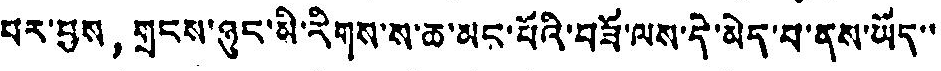པར་བྱས，གྲངས་ཉུང་མི་རིགས་ས་ཆ་མང་པོའི་བཟོ་ལས་དེ་མེད་པ་ནས་ཡོད་་
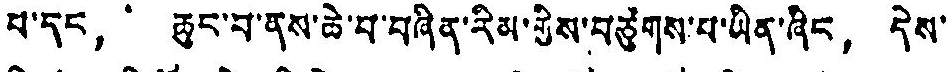པ་དང， ཆུང་བ་ནས་ཆེ་བ་བཞིན་རིམ་གྱིས་བཙུགས་པ་ཡིན་ཞིང， དེས་
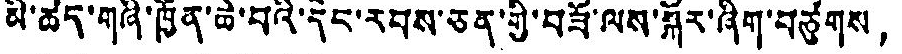མི་ཚད་གཞི་ཁྱོན་ཆེ་བའི་དེང་རབས་ཅན་གྱི་བཟོ་ལས་སྐོར་ཞིག་བཙུགས，
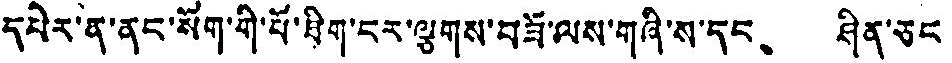དཔེར་ན་ནང་སོག་གི་པོ་ཐིག་ངར་ལྕགས་བཟོ་ལས་གཞི་ས་དང、 ཤིན་ཅང་
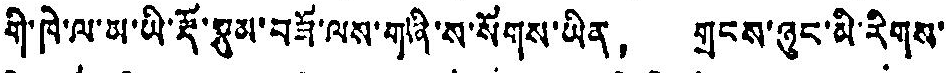གི་ཁེ་ལ་ཨ་ཡི་རྡོ་སྣུམ་བཟོ་ལས་གཞི་ས་སོགས་ཡིན， གྲངས་ཉུང་མི་རིགས་
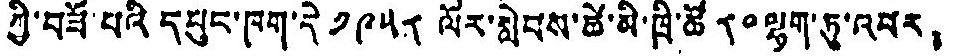ཀྱི་བཟོ་པའི དཔུང་ཁུག་དེ ༡༩༥༨ ལོར་སླེབས་ཚེ་མི་ཁྲི་ཚོ ༨༠ ལྷག་ཏུ་འབར，
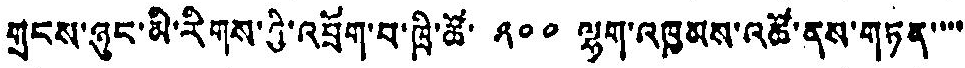གྲངས་ཉུང་མི་རིགས་ཀྱི་འབྲོག་པ་ཁྲི་ཚོ་ ༢༠༠ ལྷག་འཁྱམས་འཚོ་ནས་གཏན་་་་་
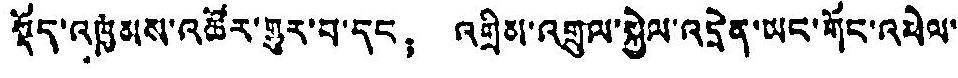སྡོད་འཁྱམས་འཚོར་གྱུར་བ་དང； འགྲིམ་འགྲུལ་སྐྱེལ་འདྲེན་ཡང་གོང་འཕེལ་
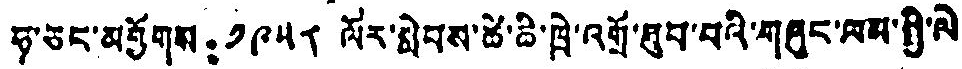ཧ་ཅང་མགྱོགས： ༡༩༥༨ ལོར་སླེབས་ཚེ་ཆི་ཁྲེ་འགྲོ་ཐུབ་པའི་གཞུང་ལམ་སྤྱི་ལེ་
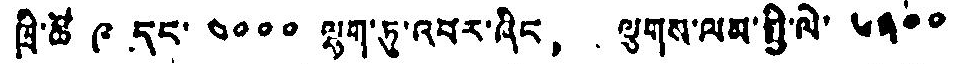ཁྲི་ཚོ ༩ དང་ ༤༠༠༠ ལྷག་ཏུ་འབར་ཞིང， ལྕགས་ལམ་སྤྱི་ལེ་ ༦༣༠༠
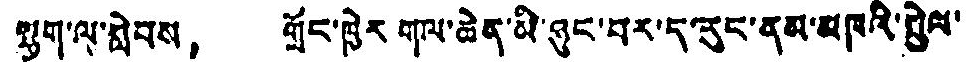ཕྱག་ལ་སླེབས， གྲོང་ཁྱེར གལ་ཆེན་མི་ཉུང་བར་ད་རུང་ནམ་མཁའི་སྤྱེལ་
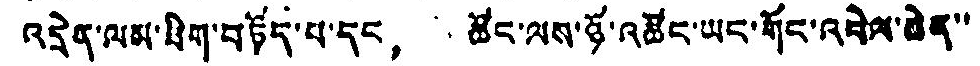འདྲེན་ལམ་ཐིག་བཏོད་པ་དང， ཚོང་ལས་ཉོ་འཚོང་ཡང་གོང་འཕེལ་ཆེན་་
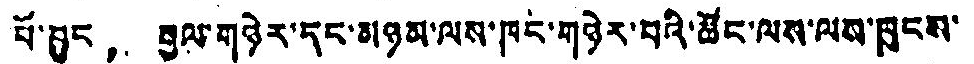པོ་བྱུང， རྒྱལ་གཉེར་དང་མཉམ་ལས་ཁང་གཉེར་བའི་ཚོང་ལས་ལམ་ཁུངས་
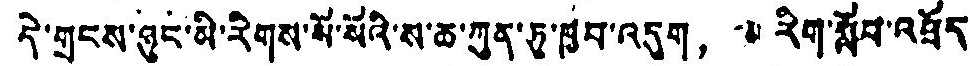དེ་གྲངས་ཉུང་མི་རིགས་སོ་སོའི་ས་ཆ་ཀུན་ཏུ་ཁྱབ་འདུག， རིག་སློབ་འཕྲོད
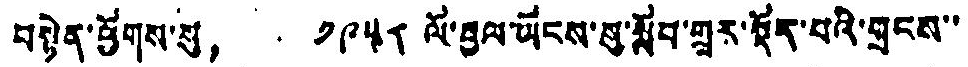བསྟེན་ཕྱོགས་སུ， ༡༩༥༨ ལོ་བྱལ་ཡོངས་སུ་སློབ་གྲྭར་སྡོད་པའི་གྲངས་་
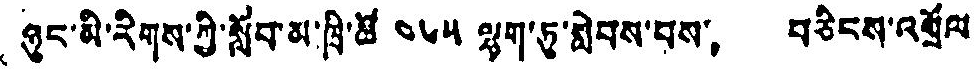ཉུང་མི་རིགས་ཀྱི་སློབ་མ་ཁྲི་ཚོ ༤༦༥ ལྷག་ཏུ་སླེབས་པས， བཅིངས་འགྲོལ་
